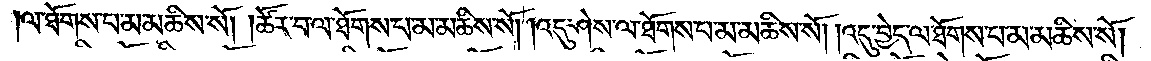ལ་ཐོགས་པ་མ་མཆིས་སོ། །ཚོར་བ་ལ་ཐོགས་པ་མ་མཆིས་སོ། །འདུ་ཤེས་ལ་ཐོགས་པ་མ་མཆིས་སོ། །འདུ་བྱེད་ལ་ཐོགས་པ་མ་མཆིས་སོ། །
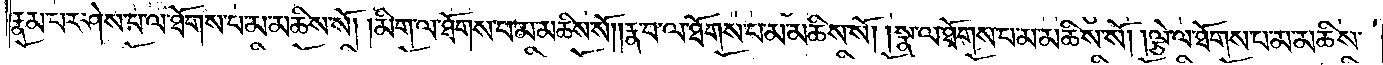རྣམ་པར་ཤེས་པ་ལ་ཐོགས་པ་མ་མཆིས་སོ། །མིག་ལ་ཐོགས་པ་མ་མཆིས་སོ། །རྣ་བ་ལ་ཐོགས་པ་མ་མཆིས་སོ། །སྣ་ལ་ཐོགས་པ་མ་མཆིས་སོ། །ལྕེ་ལ་ཐོགས་པ་མ་མཆིས་
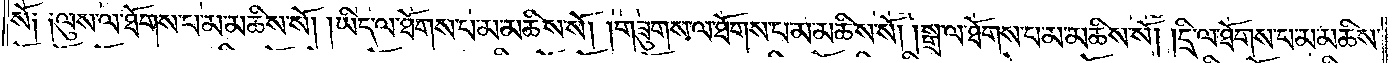སོ། །ལུས་ལ་ཐོགས་པ་མ་མཆིས་སོ། །ཡིད་ལ་ཐོགས་པ་མ་མཆིས་སོ། །གཟུགས་ལ་ཐོགས་པ་མ་མཆིས་སོ། །སྒྲ་ལ་ཐོགས་པ་མ་མཆིས་སོ། །དྲི་ལ་ཐོགས་པ་མ་མཆིས་
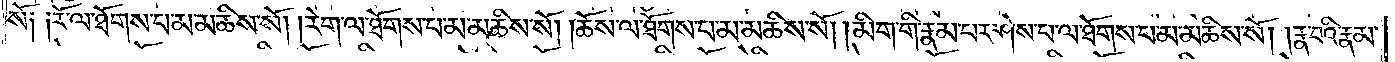སོ༑ ༑རོ་ལ་ཐོགས་པ་མ་མཆིས་སོ། །རེག་ལ་ཐོགས་པ་མ་མཆིས་སོ། །ཆོས་ལ་ཐོགས་པ་མ་མཆིས་སོ། །མིག་གི་རྣམ་པར་ཤེས་པ་ལ་ཐོགས་པ་མ་མཆིས་སོ། །རྣ་བའི་རྣམ་
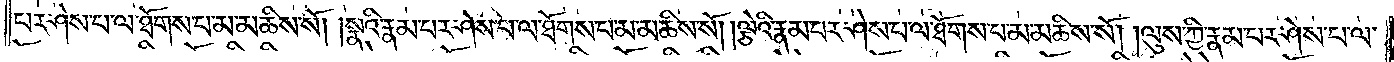པར་ཤེས་པ་ལ་ཐོགས་པ་མ་མཆིས་སོ། །སྣའི་རྣམ་པར་ཤེས་པ་ལ་ཐོགས་པ་མ་མཆིས་སོ། །ལྕེའི་རྣམ་པར་ཤེས་པ་ལ་ཐོགས་པ་མ་མཆིས་སོ། །ལུས་ཀྱི་རྣམ་པར་ཤེས་པ་ལ་
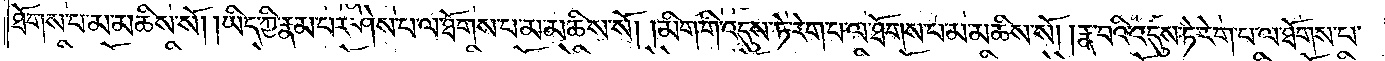ཐོགས་པ་མ་མཆིས་སོ། །ཡིད་ཀྱི་རྣམ་པར་ཤེས་པ་ལ་ཐོགས་པ་མ་མཆིས་སོ། །མིག་གི་འདུས་ཏེ་རེག་པ་ལ་ཐོགས་པ་མ་མཆིས་སོ། །རྣ་བའི་འདུས་ཏེ་རེག་པ་ལ་ཐོགས་པ་
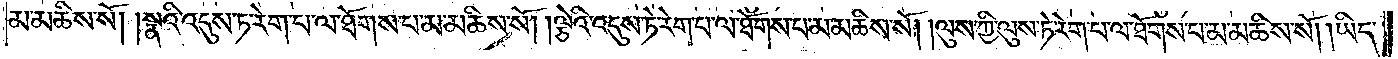མ་མཆིས་སོ། །སྣའི་འདུས་ཏེ་རེག་པ་ལ་ཐོགས་པ་མ་མཆིས་སོ། །ལྕེའི་འདུས་ཏེ་རེག་པ་ལ་ཐོགས་པ་མ་མཆིས་སོ། །ལུས་ཀྱི་འདུས་ཏེ་རེག་པ་ལ་ཐོགས་པ་མ་མཆིས་སོ། །ཡིད་
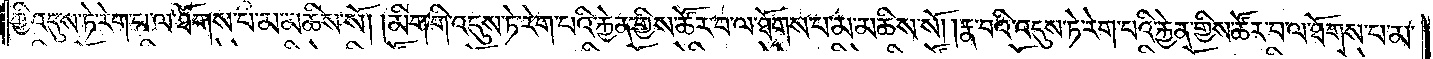ཀྱི་འདུས་ཏེ་རེག་པ་ལ་ཐོགས་པ་མ་མཆིས་སོ། །མིག་གི་འདུས་ཏེ་རེག་པའི་རྐྱེན་གྱིས་ཚོར་བ་ལ་ཐོགས་པ་མ་མཆིས་སོ། །རྣ་བའི་འདུས་ཏེ་རེག་པའི་རྐྱེན་གྱིས་ཚོར་བ་ལ་ཐོགས་པ་མ་
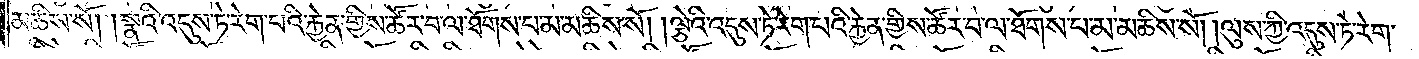མཆིས་སོ། །སྣའི་འདུས་ཏེ་རེག་པའི་རྐྱེན་གྱིས་ཚོར་བ་ལ་ཐོགས་པ་མ་མཆིས་སོ། །ལྕེའི་འདུས་ཏེ་རེག་པའི་རྐྱེན་གྱིས་ཚོར་བ་ལ་ཐོགས་པ་མ་མཆིས་སོ། །ལུས་ཀྱི་འདུས་ཏེ་རེག་
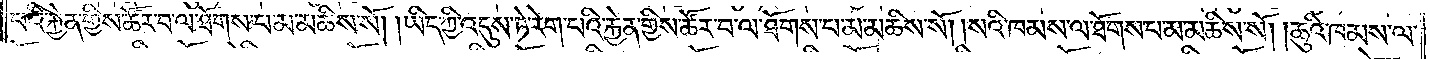པའི་རྐྱེན་གྱིས་ཚོར་བ་ལ་ཐོགས་པ་མ་མཆིས་སོ། །ཡིད་ཀྱི་འདུས་ཏེ་རེག་པའི་རྐྱེན་གྱིས་ཚོར་བ་ལ་ཐོགས་པ་མ་མཆིས་སོ། །སའི་ཁམས་ལ་ཐོགས་པ་མ་མཆིས་སོ། །ཆུའི་ཁམས་ལ་
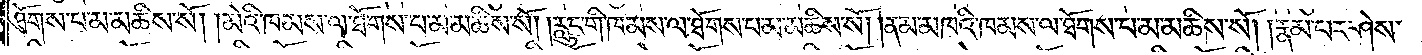ཐོགས་པ་མ་མཆིས་སོ། །མེའི་ཁམས་ལ་ཐོགས་པ་མ་མཆིས་སོ། །རླུང་གི་ཁམས་ལ་ཐོགས་པ་མ་མཆིས་སོ། །ནམ་མཁའི་ཁམས་ལ་ཐོགས་པ་མ་མཆིས་སོ། །རྣམ་པར་ཤེས་
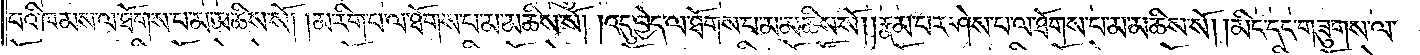པའི་ཁམས་ལ་ཐོགས་པ་མ་མཆིས་སོ། །མ་རིག་པ་ལ་ཐོགས་པ་མ་མཆིས་སོ། །འདུ་བྱེད་ལ་ཐོགས་པ་མ་མཆིས་སོ། །རྣམ་པར་ཤེས་པ་ལ་ཐོགས་པ་མ་མཆིས་སོ། །མིང་དང་གཟུགས་ལ་
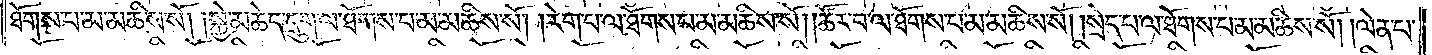ཐོགས་པ་མ་མཆིས་སོ། །སྐྱེ་མཆེད་དྲུག་ལ་ཐོགས་པ་མ་མཆིས་སོ། །རེག་པ་ལ་ཐོགས་པ་མ་མཆིས་སོ། །ཚོར་བ་ལ་ཐོགས་པ་མ་མཆིས་སོ། །སྲེད་པ་ལ་ཐོགས་པ་མ་མཆིས་སོ། །ལེན་པ་
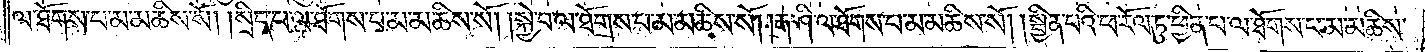ལ་ཐོགས་པ་མ་མཆིས་སོ། །སྲིད་པ་ལ་ཐོགས་པ་མ་མཆིས་སོ། །སྐྱེ་བ་ལ་ཐོགས་པ་མ་མཆིས་སོ། །རྒ་ཤི་ལ་ཐོགས་པ་མ་མཆིས་སོ། །སྦྱིན་པའི་ཕ་རོལ་ཏུ་ཕྱིན་པ་ལ་ཐོགས་པ་མ་མཆིས་
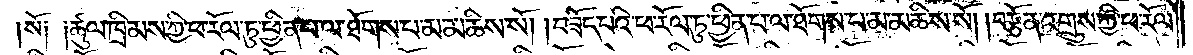སོ། །ཚུལ་ཁྲིམས་ཀྱི་ཕ་རོལ་ཏུ་ཕྱིན་པ་ལ་ཐོགས་པ་མ་མཆིས་སོ། །བཟོད་པའི་ཕ་རོལ་ཏུ་ཕྱིན་པ་ལ་ཐོགས་པ་མ་མཆིས་སོ། །བརྩོན་འགྲུས་ཀྱི་ཕ་རོལ་
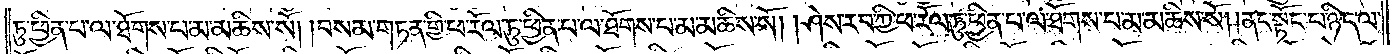ཏུ་ཕྱིན་པ་ལ་ཐོགས་པ་མ་མཆིས་སོ། །བསམ་གཏན་གྱི་ཕ་རོལ་ཏུ་ཕྱིན་པ་ལ་ཐོགས་པ་མ་མཆིས་སོ། །ཤེས་རབ་ཀྱི་ཕ་རོལ་ཏུ་ཕྱིན་པ་ལ་ཐོགས་པ་མ་མཆིས་སོ། །ནང་སྟོང་པ་ཉིད་ལ་
